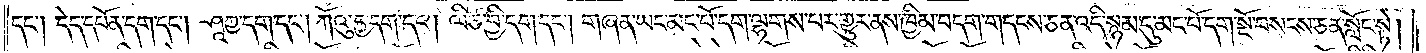དང༌། དེད་དཔོན་དག་དང༌། ཤཱཀྱ་དག་དང༌། ཀོའུ་དྱ་དག་དང༌། ལི་ཙ་བྱི་དག་དང༌། གཞན་ཡང་མང་པོ་དག་ལྷགས་པར་གྱུར་ནས་ཁྱིམ་བདག་གདངས་ཅན་འདི་སྙམ་དུ་མང་པོ་དག་སྔོ་བསངས་ཅན་སློང་སྟེ།
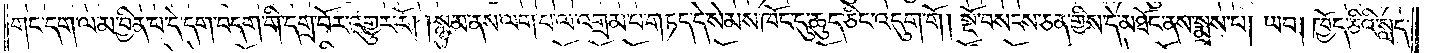གང་དག་ལ་མ་བྱིན་པ་དེ་དག་བདག་གི་དགྲ་བོར་འགྱུར་རོ། །སྙམ་ནས་ལག་པ་ལ་འགྲམ་པ་གཏད་དེ་སེམས་ཁོང་དུ་ཆུད་ཅིང་འདུག་གོ། སྔོ་བསངས་ཅན་གྱིས་དེ་མཐོང་ནས་སྨྲས་པ། ཡབ། ཁྱོད་ཅིའི་སླད་
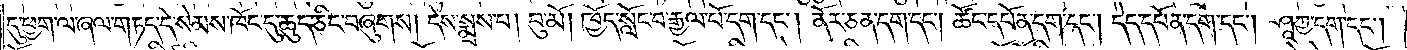དུ་ཕྱག་ལ་ཞལ་གཏད་དེ་སེམས་ཁོང་དུ་ཆུད་ཅིང་བཞུགས། དེས་སྨྲས་པ། བུ་མོ། ཁྱོད་སློང་བ་རྒྱལ་པོ་དག་དང༌། ནོར་ཅན་དག་དང༌། ཚོང་དཔོན་དག་དང༌། དེད་དཔོན་དག་དང༌། ཤཱཀྱ་དག་དང༌།
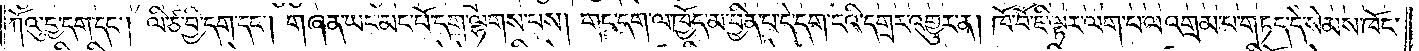ཀོའུ་དྱ་དག་དང༌། ལི་ཙ་བྱི་དག་དང༌། གཞན་ཡང་མང་པོ་དག་ལྷགས་པས། གང་དག་ལ་ཁྱོད་མ་བྱིན་པ་དེ་དག་ངའི་དགྲར་འགྱུར་ན། ཁོ་བོ་ཇི་ལྟར་ལག་པ་ལ་འགྲམ་པ་གཏད་དེ་སེམས་ཁོང་
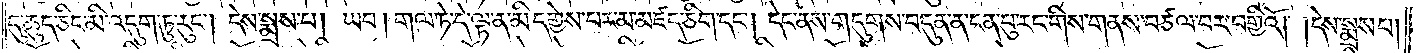དུ་ཆུད་ཅིང་མི་འདུག་ཏུ་རུང༌། དེས་སྨྲས་པ། ཡབ། གལ་ཏེ་དེ་ལྟ་ན་མི་དགྱེས་པར་མ་མཛད་ཅིག་དང༌། དེང་ནས་གདུགས་བདུན་ན་ངན་བུ་རང་གིས་གནས་བཙལ་བར་བགྱིའོ། །དེས་སྨྲས་པ།
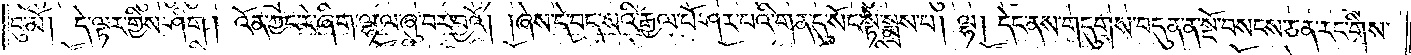བུ་མོ། དེ་ལྟར་གྱིས་ཤིག །འོན་ཀྱང་རེ་ཞིག་ལྷ་ལ་ཞུ་བར་བྱའོ། །ཞེས་དེ་བད་སའི་རྒྱལ་པོ་ཤར་པའི་གན་དུ་སོང་སྟེ་སྨྲས་པ། ལྷ། དེང་ནས་གདུགས་བདུན་ན་སྔོ་བསངས་ཅན་རང་གིས་
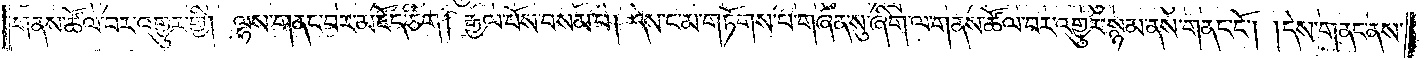གནས་ཚོལ་བར་འགྱུར་གྱི། ལྷས་གནང་བར་མཛོད་ཅིག །རྒྱལ་པོས་བསམ་པ། དེས་ང་མ་གཏོགས་པ་གཞན་སུ་ཞིག་ལ་གནས་ཚོལ་བར་འགྱུར་སྙམ་ནས་གནང་ངོ༌། །དེས་གནང་ནས་
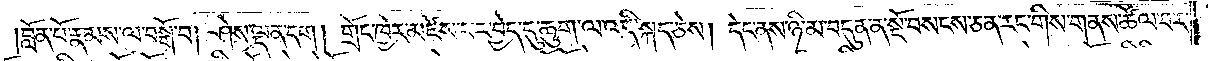།བློན་པོ་རྣམས་ལ་བསྒོ་བ། ཤེས་ལྡན་དག །གྲོང་ཁྱེར་མཛེས་པར་བྱེད་དུ་ཆུག་ལ་འདི་སྐད་ཅེས། དེང་ནས་ཉི་མ་བདུན་ན་སྔོ་སངས་ཅན་རང་གིས་གནས་ཚོལ་བར་
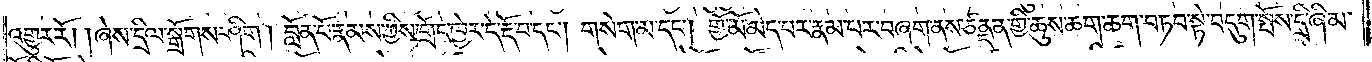འགྱུར་རོ། །ཞེས་དྲིལ་སྒྲོགས་ཤིག། བློན་པོ་རྣམས་ཀྱིས་གྲོང་ཁྱེར་དེ་རྡོ་བ་དང༌། གསེག་མ་དང༌། གྱོ་མོ་མེད་པར་རྣམ་པར་བཞག་ནས་ཙནྡན་གྱི་ཆུས་ཆག་ཆག་བཏབ་སྟེ་བདུག་སྤོས་དྲི་ཞིམ་
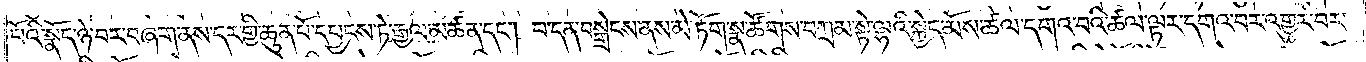པོའི་སྣོད་ཉེ་བར་བཞག་ནས་དར་གྱི་ཆུན་པོ་དཔྱངས་ཏེ་རྒྱལ་མཚན་དང༌། བ་དན་བསྒྲེངས་ནས་མེ་ཏོག་སྣ་ཚོགས་བཀྲམ་སྟེ་ལྷའི་སྐྱེད་མོས་ཚལ་དགའ་བའི་ཚལ་ལྟར་དགའ་བར་འགྱུར་བར་
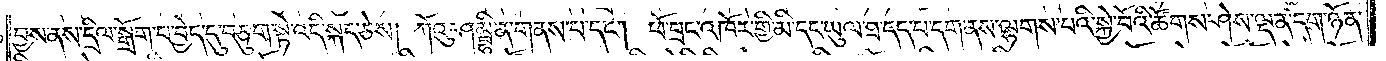བྱས་ནས་དྲིལ་སྒྲོག་པ་བྱེད་དུ་བཅུག་སྟེ་འདི་སྐད་ཅེས། ཀོའུ་ཤམྦྷི་ན་གནས་པ་དང༌། ཕོ་བྲང་འཁོར་གྱི་མི་དང་ཡུལ་ཐ་དད་པ་དག་གནས་ལྷགས་པའི་སྐྱེ་བོའི་ཚོགས་ཤེས་ལྡན་དག་ཉོན་
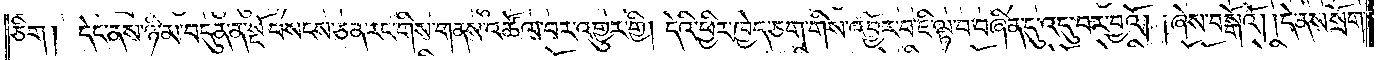ཅིག །དེང་ནས་ཉི་མ་བདུན་ན་སྔོ་བསངས་ཅན་རང་གིས་གནས་འཚོལ་བར་འགྱུར་གྱི། དེའི་ཕྱིར་ཁྱེད་ཅག་གིས་འབྱོར་པ་ཇི་ལྟ་བ་བཞིན་འདུ་བར་བྱའོ། །ཞེས་བསྒོའོ། །དེ་ནས་སྲོག་
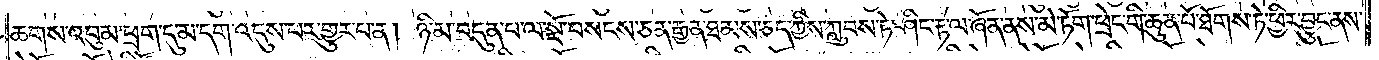ཆགས་འབུམ་ཕྲག་དུ་མ་དག་འདུས་པར་གྱུར་པ་ན། ཉི་མ་བདུན་པ་ལ་སྔོ་བསངས་ཅན་རྒྱན་ཐམས་ཅད་ཀྱིས་ཀླུབས་ཏེ་ཤིང་རྟ་ལ་ཞོན་ནས་མེ་ཏོག་ཕྲེང་གི་ཆུན་པོ་ཐོགས་ཏེ་ཕྱིར་བྱུང་ནས་
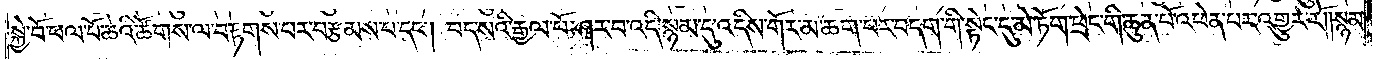སྐྱེ་བོ་ཕལ་པོ་ཆེའི་ཚོགས་ལ་བརྟགས་པར་བརྩམས་པ་དང༌། བད་སའི་རྒྱལ་པོ་ཤར་བ་འདི་སྙམ་དུ་འདིས་གོར་མ་ཆག་པར་བདག་གི་སྟེང་དུ་མེ་ཏོག་ཕྲེང་གི་ཆུན་པོ་འཕེན་པར་འགྱུར་རོ། །སྙམ་
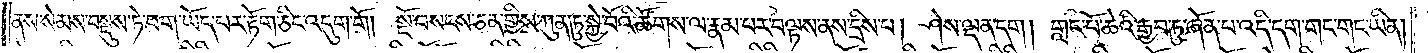ནས་སེམས་བསྡུས་ཏེ་བག་ཡོད་པར་རྟོག་ཅིང་འདུག་གོ །སྔོ་བསངས་ཅན་གྱིས་ཀུན་ཏུ་སྐྱེ་བོའི་ཚོགས་ལ་རྣམ་པར་བལྟས་ནས་དྲིས་པ། ཤེས་ལྡན་དག །གླང་པོ་ཆེའི་རྒྱབ་ཏུ་ཞོན་པ་འདི་དག་གང་གང་ཡིན།
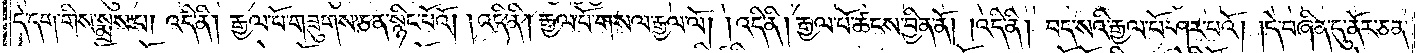དེ་དག་གིས་སྨྲས་པ། འདི་ནི། རྒྱལ་པོ་གཟུགས་ཅན་སྙིང་པོའོ། །འདི་ནི། རྒྱལ་པོ་གསལ་རྒྱལ་ལོ། །འདི་ནི། རྒྱལ་པོ་ཚངས་བྱིན་ནོ། །འདི་ནི། བད་སའི་རྒྱལ་པོ་ཤར་པའོ། །དེ་བཞིན་དུ་ནོར་ཅན་
